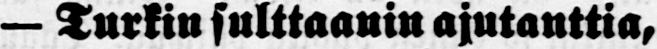— Turkin sulttaanin ajutanttia,
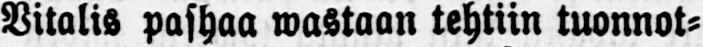Vitalis Pashaa wastaan tehtiin tuonnot-
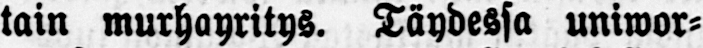tain murhayritys. Täydessä uniwor-
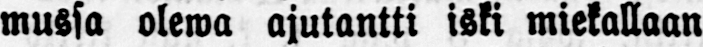mussa olewa ajutantti iski miekallaan
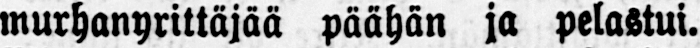murhanyrittäjää päähän ja pelastui.
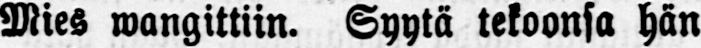Mies wangittiin. Syytä tekoonsa hän
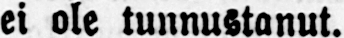ei ole tunnustanut.
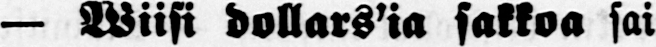— Wiisi dollars'ia sakkoa sai
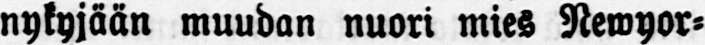nykyjään muudan nuori mies Newyor-
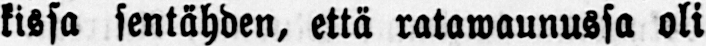kissa sentähden, että ratawaunussa oli
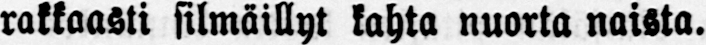rakkaasti silmäillyt kahta nuorta naista.
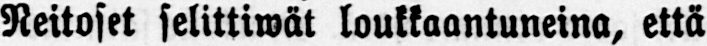Neitoset selittiwät loukkaantuneina, että
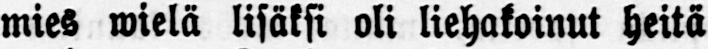mies wielä lisäksi oli liehakoinut heitä
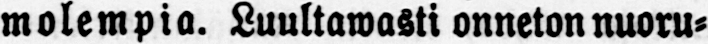molempia. Luultawasti onneton nuoru-
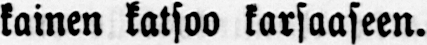kainen katsoo karsaaseen.
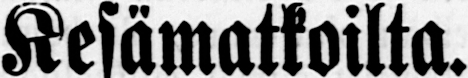Kesämatkoilta.
